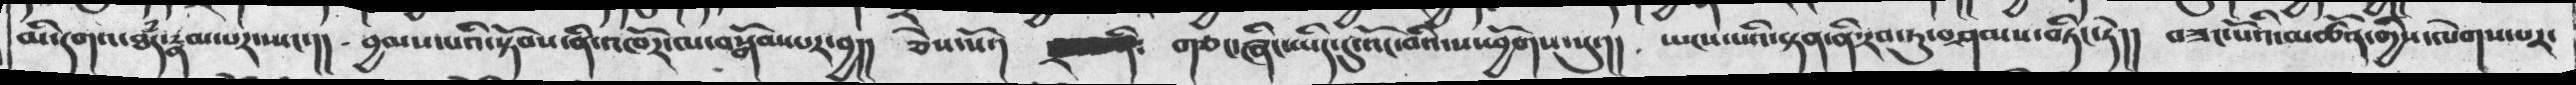མོ་དགའ་ཐཾད་རྣམ་པར་སྤང་།།  བྱམས་པའི་སྟོབས་ནི་འཁོར་ལ་བསྒོམ་པར་བྱ།།  ཅེས་སོ་།  གཅང་ཞིང་ཡིད་དུ་འོང་བའི་ས་ཕྱོགས་སུ་།།  ཡངས་པའི་སྟན་ནི་རབ་ཏུ་བཤམས་བཏིང་ཏེ།།   བཟང་པོའི་མཚོན་གྱིས་ལེགས་པར་
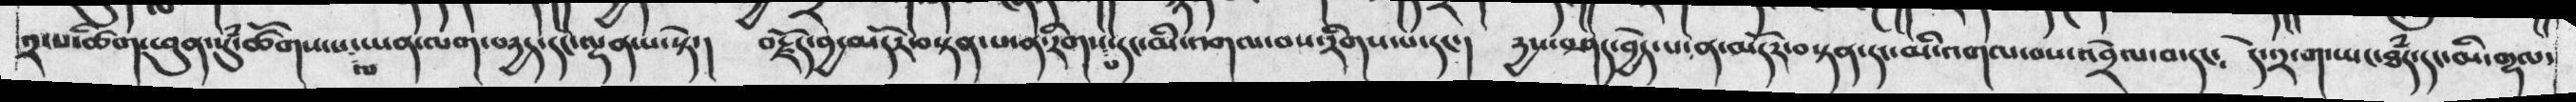༢་པ་ཚིག་ཕུན་སུཾ་ཚོགས་པ་ལ་ཡན་ལག་བདྱད་དང་ལྡན་པ་སྟེ་།  བརྗོད་བྱ་མདོར་བསྟན་པ་ན་རིགས་པ་དང་མི་འགལ་བས་རིགས་པ་དང་།  རྱས་བཤད་བྱེད་པ་ན་མདོར་བསྟན་དང་མི་འགལ་བས་འབྲེལ་བ་དང༴  དེ་༢་ག་ཡང་ཐཾད་དང་མི་གྷལ་
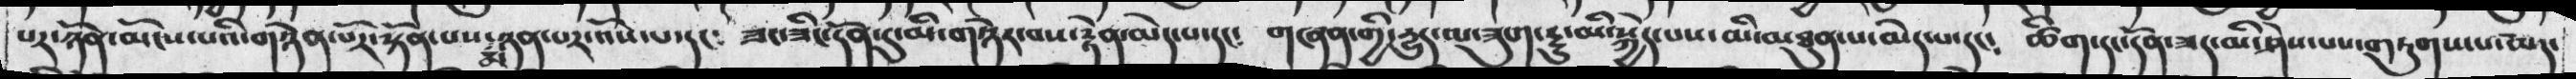པར་ཉོན་མོངས་པའི་གཉེན་པོར་སྟོན་པས་མཉན་པར་འོས་པ་དང༴  ཟང་ཟིང་དོན་དུ་མི་གཉེར་བས་རྟེན་མེད་པ་དང༴  གཞན་གྱི་དྱུར་ལ་ཟུག་དྱུ་མི་སྐྱེད་པས་མི་མཐུན་པ་མེད་པ་དང༴  ཚིག་དང་དོན་ཟད་མི་ཤེས་པས་གཏུགས་པ་མེད་
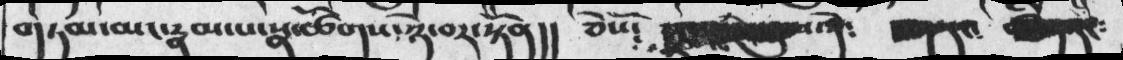གཏམ་མང་རྣམ་པ་སྣ་ཚོགས་ཉེ་བར་སྟོན།།  ཅེསོ༴
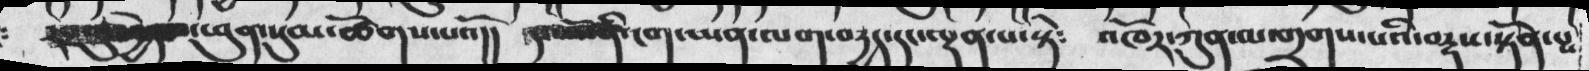ཕུན་སུམ་ཚོགས་པའོ།།   དང་པོ་ནི་ངག་ཡན་ལག་བརྱད་དང་ལྡན་པ་སྟེ༴  འཁོར་ཀུན་མ་གྲགས་པའི་བརྡས་སྟོན་པས
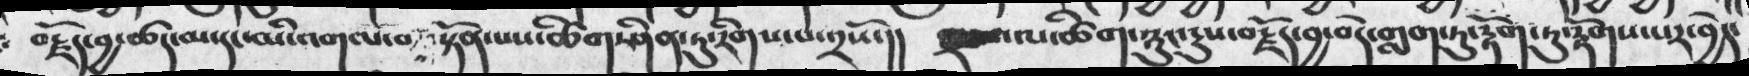བརྗོད་བྱ་ཚད་མ་དང་མི་འགལ་བའི་སྟོན་པས་ཚིག་ཤིན་ཏུ་རིགས་པ་༢སོ་།།  ལ་ཚིག་ཉུང་དུས་བརྗོད་བྱ་བདེ་གླག་ཏུ་རྟོག་ཏུ་རྫོགས་པར་བྱེད་
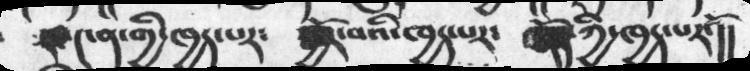༤ན་གྱི་ཁྱད་པར༴  སྦྱོར་བའི་ཁྱད་པར༴  གནོད་ཀྱི་ཁྱད་པརོ་།།
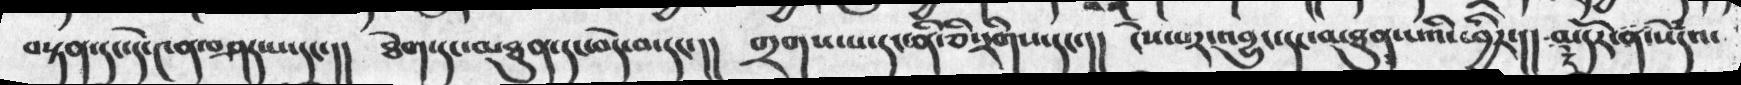བསྟན་དང་དེ་༤ན་བཤད་པ་དང་།།  ཐེག་དང་མཐུན་དང་བདེ་བ་དང་།།  གྲགས་པ་དང་ནི་ཅི་རིགས་དང་།།  ངེས་པར་འབྱུང་དང་མཐུན་པའི་ཕྱིར་།།  མདོར་ན་སེཾདའ་
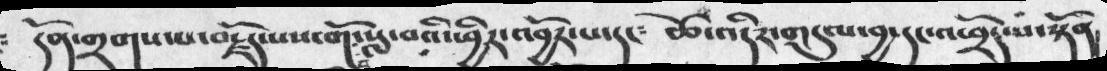དོན་གྲགས་པ་བརྗོད་པས་གོང་སླ་བའི་ཕྱིར་འབྱོར་པ་དང༴  ཚེ་འདིར་གདུལ་བྱ་དང་འཕྲོད་པ་སྟོན།
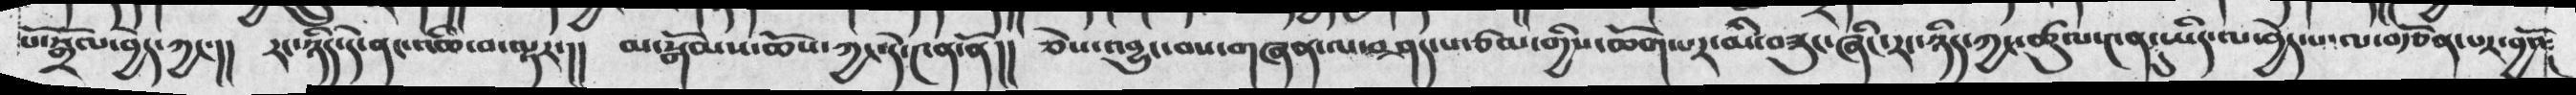པ་སྒྲོལ་བྱེད་ཀྱང་།།  རང་ཉིད་དེ་ནང་འཆི་བ་ལྟར་།།  མ་སྒོམས་ཆོས་ཀྱང་དེ་༤ན་ནོ།།  ཅེས་འབྱུང་བས་གཞན་ལ་བཤད་པ་ཙམ་གྱིས་ཆོག་པར་མི་བཟུང་ཞིང་རང་ཉིད་ཀྱང་ཚུལ་༤ན་དུ་ཡིད་ལ་བྱེད་པ་ལ་བརྩོན་པར་བྱའོ༴
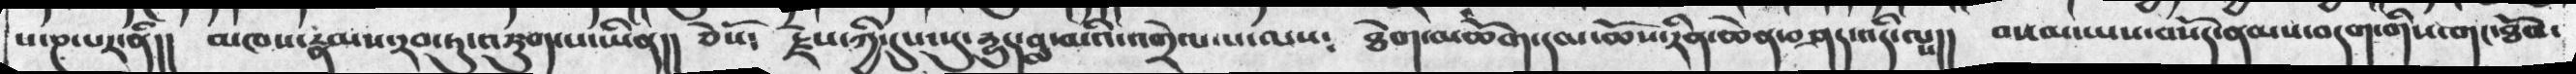པ་ཎ་པར་ནི།།  མཁས་རྣམས་རབ་ཏུ་འཇུག་པ་ཡིན།།  ཅེསོ༴  རྗེས་ཀྱི་དུས་སུ་དྱུད་བླ་མའི་འགྲེལ་པ་ལས༴  ཐེག་མཆོག་དམ་ཆོས་རིན་ཆེན་བཤད་འདི་ལྤ།།   བསམ་ཡས་བསོད་ནམས་བདག་གིས་གང་ཐོབ་
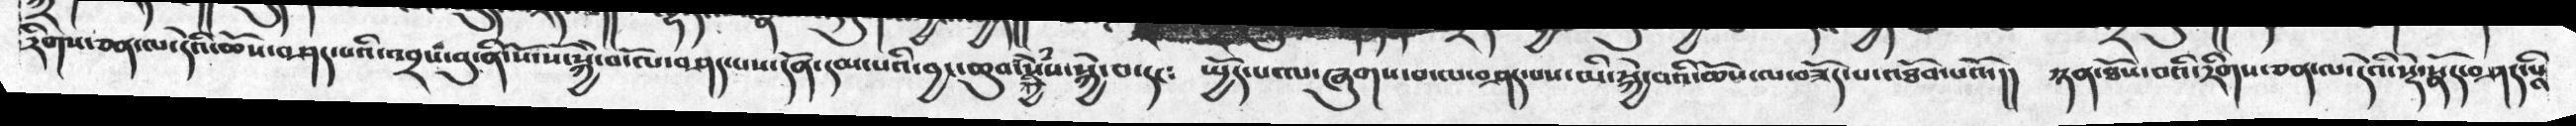རིགས་ཅན་དེའི་ཆོས་བཤད་པའི་འབྲས་བུ་ནི་སོ་སོ་སྐྱེ་བོ་ལ་བཤད་པས་དོན་དམ་པའི་བྱང་ཆུབ་ཀྱི་སེཾས་སྐྱེ་བ་དང༴      ཡྱོད་པ་ལ་ཞུགས་བ་ལ་བཤད་པས་མི་སྐྱེ་བའི་ཆོས་ལ་བཟོད་པ་འཐོབ་པའོ་།།   ཉན་ཐོས་བའི་རིགས་ཅན་ལ་དེའི་སྡེ་སྣོད་བཤད་པའི་
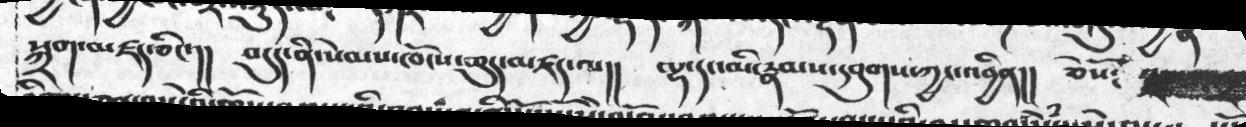སྐྲག་མཛད་ཅིང་།།    བདུད་ནི་སེམས་ཁོངས་ཆུད་མཛད་ལ།།   ལྷ་དང་མི་རྣམས་དབུགས་ཀྱང་འབྱིན།།   ཅེསོ༴
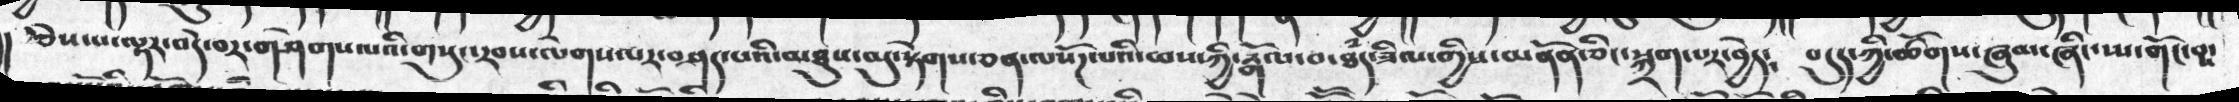ཅེས་པ་ལྟར་བདེ་བར་གཤེགས་པའི་གསུང་རབས་ལེགས་པར་བཤད་པའི་མཐུས་མུ་སྟེགས་ཅན་ལསོཌ་པའི་ཕས་ཀྱི་རྒོལ་བ་ཐཾད་ཟིལ་གྱིས་མནོན་ཅིང་སྐྲག་པར་བྱེད༴  བདུད་ཀྱི་ཚོགས་ཞུམ་ཞིང་སྤ་གོང་བསས་
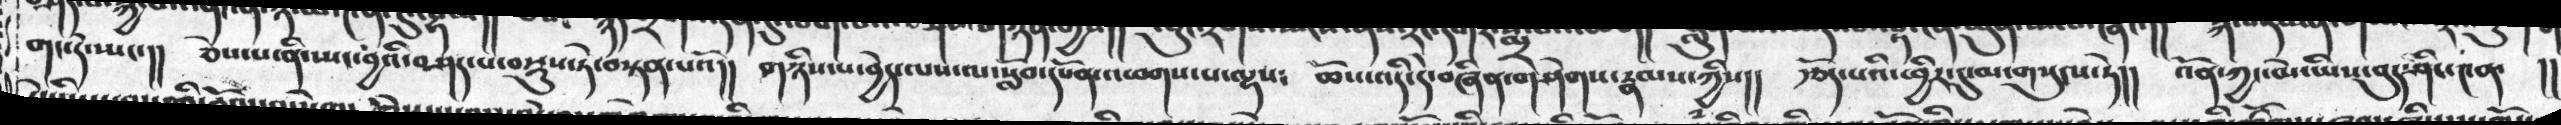གང་དེ་སྤང་།།  ཅེས་པ་ནི་སྤང་བྱའི་བཤད་པ་བསྡུས་ཏེ་བསྟན་པའོ།།  གཉིས་པ་བྱེད་ལས་ལ་སློབ་དཔོན་འཕགས་པ་ལྷས   ཆོས་འདི་དེ་བཞིན་གཤེགས་རྣམས་ཀྱིས།།  རྩོད་པའི་ཕྱིར་དུ་མ་གསུངས་ཏེ།། འོན་ཀྱང་མེ་ཡིས་བུད་ཤིང་༤ན་   །།
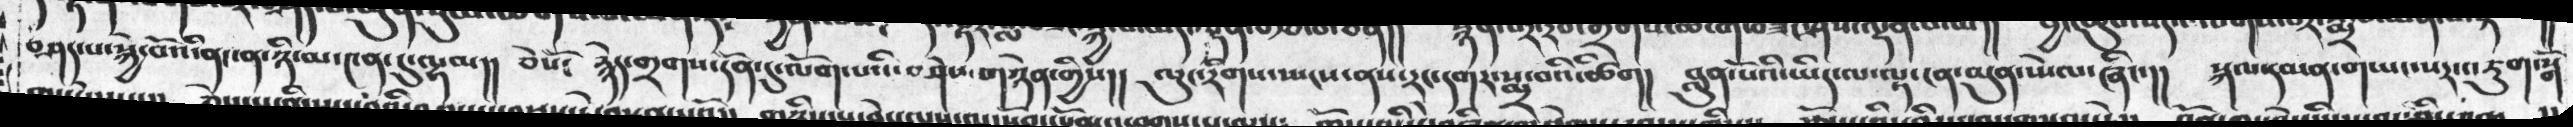བཤད་པ་སྐྱེ་བོའི་ནང་ན་ཉི་མ་༤ན་དུ་ལྟམ།།  ཅེསོ༴   རྙེད་གྲགས་དོན་དུ་ལོག་པའི་བཤེས་གཉེན་གྱིས།།  ལུང་རིགས་སྤངས་ནས་རང་དགར་སྨྲ་བའི་ཚིག།  བླུན་པོའི་ཡིད་ལ་ལྟ་ངན་མུན་སྤེལ་ཞིང་།།  སྐལ་དམན་གཡང་སར་འཇུག་སྒོ
